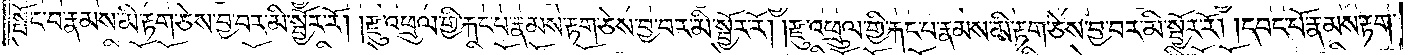སྤོང་བ་རྣམས་མི་རྟག་ཅེས་བྱ་བར་མི་སྦྱོར་རོ། །རྫུ་འཕྲུལ་གྱི་རྐང་པ་རྣམས་རྟག་ཅེས་བྱ་བར་མི་སྦྱོར་རོ། །རྫུ་འཕྲུལ་གྱི་རྐང་པ་རྣམས་མི་རྟག་ཅེས་བྱ་བར་མི་སྦྱོར་རོ། །དབང་པོ་རྣམས་རྟག་
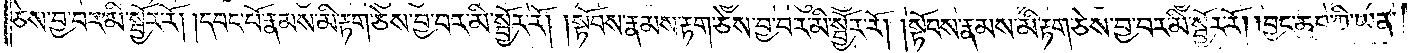ཅེས་བྱ་བར་མི་སྦྱོར་རོ། །དབང་པོ་རྣམས་མི་རྟག་ཅེས་བྱ་བར་མི་སྦྱོར་རོ། །སྟོབས་རྣམས་རྟག་ཅེས་བྱ་བར་མི་སྦྱོར་རོ། །སྟོབས་རྣམས་མི་རྟག་ཅེས་བྱ་བར་མི་སྦྱོར་རོ། །བྱང་ཆུབ་ཀྱི་ཡན་
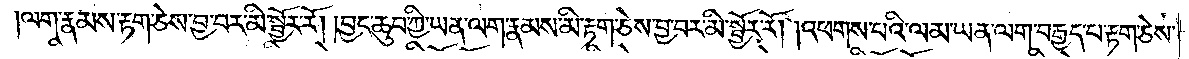ལག་རྣམས་རྟག་ཅེས་བྱ་བར་མི་སྦྱོར་རོ། །བྱང་ཆུབ་ཀྱི་ཡན་ལག་རྣམས་མི་རྟག་ཅེས་བྱ་བར་མི་སྦྱོར་རོ། །འཕགས་པའི་ལམ་ཡན་ལག་བརྒྱད་པ་རྟག་ཅེས་
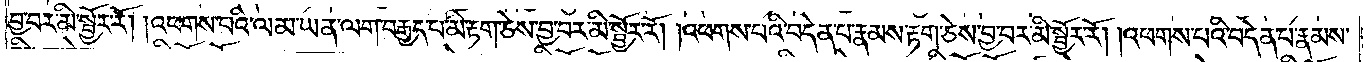བྱ་བར་མི་སྦྱོར་རོ། །འཕགས་པའི་ལམ་ཡན་ལག་བརྒྱད་པ་མི་རྟག་ཅེས་བྱ་བར་མི་སྦྱོར་རོ། །འཕགས་པའི་བདེན་པ་རྣམས་རྟག་ཅེས་བྱ་བར་མི་སྦྱོར་རོ། །འཕགས་པའི་བདེན་པ་རྣམས་
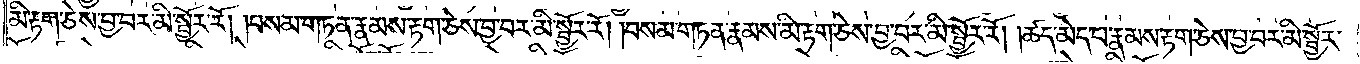མི་རྟག་ཅེས་བྱ་བར་མི་སྦྱོར་རོ། །བསམ་གཏན་རྣམས་རྟག་ཅེས་བྱ་བར་མི་སྦྱོར་རོ། །བསམ་གཏན་རྣམས་མི་རྟག་ཅེས་བྱ་བར་མི་སྦྱོར་རོ། །ཚད་མེད་པ་རྣམས་རྟག་ཅེས་བྱ་བར་མི་སྦྱོར་
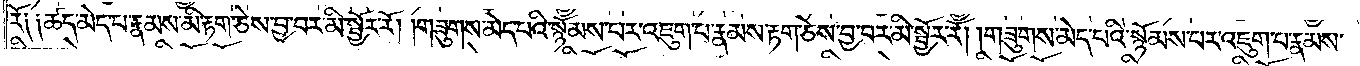རོ༑ ༑ཚད་མེད་པ་རྣམས་མི་རྟག་ཅེས་བྱ་བར་མི་སྦྱོར་རོ། །གཟུགས་མེད་པའི་སྙོམས་པར་འཇུག་པ་རྣམས་རྟག་ཅེས་བྱ་བར་མི་སྦྱོར་རོ། །གཟུགས་མེད་པའི་སྙོམས་པར་འཇུག་པ་རྣམས་
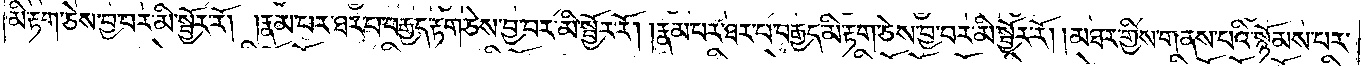མི་རྟག་ཅེས་བྱ་བར་མི་སྦྱོར་རོ། །རྣམ་པར་ཐར་པ་བརྒྱད་རྟག་ཅེས་བྱ་བར་མི་སྦྱོར་རོ། །རྣམ་པར་ཐར་པ་བརྒྱད་མི་རྟག་ཅེས་བྱ་བར་མི་སྦྱོར་རོ། །མཐར་གྱིས་གནས་པའི་སྙོམས་པར་
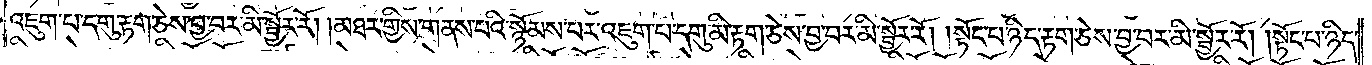འཇུག་པ་དགུ་རྟག་ཅེས་བྱ་བར་མི་སྦྱོར་རོ། །མཐར་གྱིས་གནས་པའི་སྙོམས་པར་འཇུག་པ་དགུ་མི་རྟག་ཅེས་བྱ་བར་མི་སྦྱོར་རོ། །སྟོང་པ་ཉིད་རྟག་ཅེས་བྱ་བར་མི་སྦྱོར་རོ། །སྟོང་པ་ཉིད་
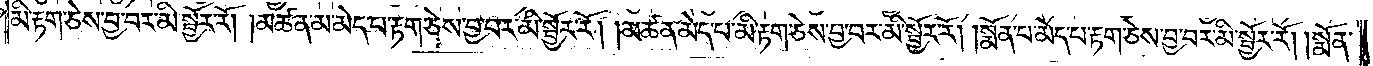མི་རྟག་ཅེས་བྱ་བར་མི་སྦྱོར་རོ། །མཚན་མ་མེད་པ་རྟག་ཅེས་བྱ་བར་མི་སྦྱོར་རོ། །མཚན་མེད་པ་མི་རྟག་ཅེས་བྱ་བར་མི་སྦྱོར་རོ། །སྨོན་པ་མེད་པ་རྟག་ཅེས་བྱ་བར་མི་སྦྱོར་རོ། །སྨོན་
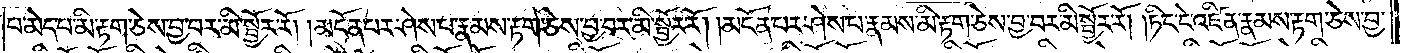པ་མེད་པ་མི་རྟག་ཅེས་བྱ་བར་མི་སྦྱོར་རོ། །མངོན་པར་ཤེས་པ་རྣམས་རྟག་ཅེས་བྱ་བར་མི་སྦྱོར་རོ། །མངོན་པར་ཤེས་པ་རྣམས་མི་རྟག་ཅེས་བྱ་བར་མི་སྦྱོར་རོ། །ཏིང་ངེ་འཛིན་རྣམས་རྟག་ཅེས་བྱ་
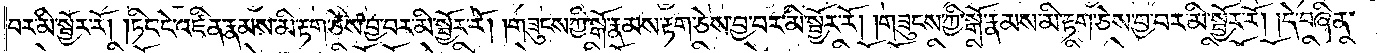བར་མི་སྦྱོར་རོ། །ཏིང་ངེ་འཛིན་རྣམས་མི་རྟག་ཅེས་བྱ་བར་མི་སྦྱོར་རོ། །གཟུངས་ཀྱི་སྒོ་རྣམས་རྟག་ཅེས་བྱ་བར་མི་སྦྱོར་རོ། །གཟུངས་ཀྱི་སྒོ་རྣམས་མི་རྟག་ཅེས་བྱ་བར་མི་སྦྱོར་རོ། །དེ་བཞིན་
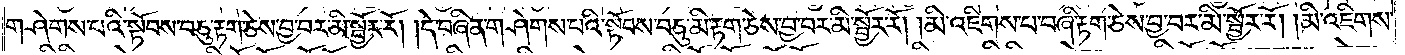གཤེགས་པའི་སྟོབས་བཅུ་རྟག་ཅེས་བྱ་བར་མི་སྦྱོར་རོ། །དེ་བཞིན་གཤེགས་པའི་སྟོབས་བཅུ་མི་རྟག་ཅེས་བྱ་བར་མི་སྦྱོར་རོ། །མི་འཇིགས་པ་བཞི་རྟག་ཅེས་བྱ་བར་མི་སྦྱོར་རོ། །མི་འཇིགས་
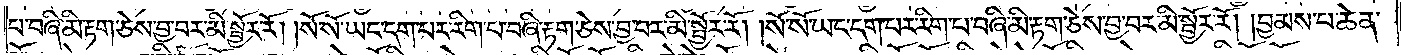པ་བཞི་མི་རྟག་ཅེས་བྱ་བར་མི་སྦྱོར་རོ། །སོ་སོ་ཡང་དག་པར་རིག་པ་བཞི་རྟག་ཅེས་བྱ་བར་མི་སྦྱོར་རོ། །སོ་སོ་ཡང་དག་པར་རིག་པ་བཞི་མི་རྟག་ཅེས་བྱ་བར་མི་སྦྱོར་རོ། །བྱམས་པ་ཆེན་
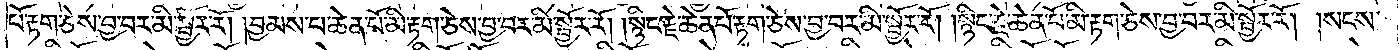པོ་རྟག་ཅེས་བྱ་བར་མི་སྦྱོར་རོ། །བྱམས་པ་ཆེན་པོ་མི་རྟག་ཅེས་བྱ་བར་མི་སྦྱོར་རོ། །སྙིང་རྗེ་ཆེན་པོ་རྟག་ཅེས་བྱ་བར་མི་སྦྱོར་རོ། །སྙིང་རྗེ་ཆེན་པོ་མི་རྟག་ཅེས་བྱ་བར་མི་སྦྱོར་རོ། །སངས་
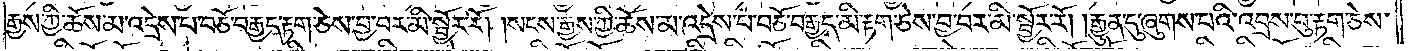རྒྱས་ཀྱི་ཆོས་མ་འདྲེས་པ་བཅོ་བརྒྱད་རྟག་ཅེས་བྱ་བར་མི་སྦྱོར་རོ། །སངས་རྒྱས་ཀྱི་ཆོས་མ་འདྲེས་པ་བཅོ་བརྒྱད་མི་རྟག་ཅེས་བྱ་བར་མི་སྦྱོར་རོ། །རྒྱུན་དུ་ཞུགས་པའི་འབྲས་བུ་རྟག་ཅེས་
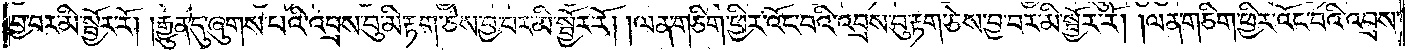བྱ་བར་མི་སྦྱོར་རོ། །རྒྱུན་དུ་ཞུགས་པའི་འབྲས་བུ་མི་རྟག་ཅེས་བྱ་བར་མི་སྦྱོར་རོ། །ལན་གཅིག་ཕྱིར་འོང་བའི་འབྲས་བུ་རྟག་ཅེས་བྱ་བར་མི་སྦྱོར་རོ། །ལན་གཅིག་ཕྱིར་འོང་བའི་འབྲས་
